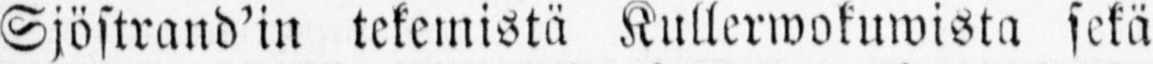Sjöstrand'in tekemistä Kullerwokuwista sekä
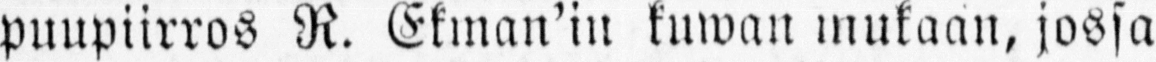puupiirros R. Ekman'in kuwan mukaan, jossa
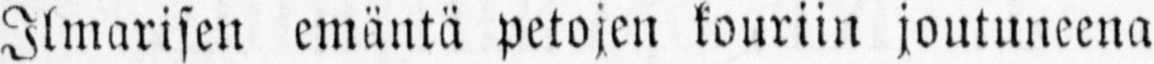Ilmarisen emäntä petojen kouriin joutuneena
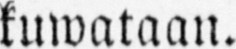kuwataan.
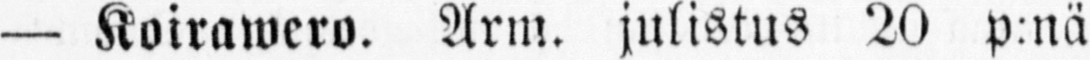— Koirawero. Arm. julistus 20 p:nä
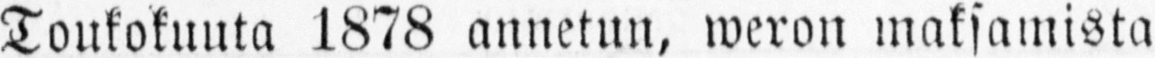Toukokuuta 1878 annetun, weron maksamista
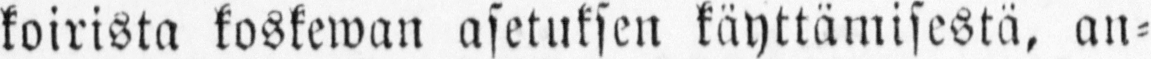koirista koskewan asetuksen käyttämisestä, an-
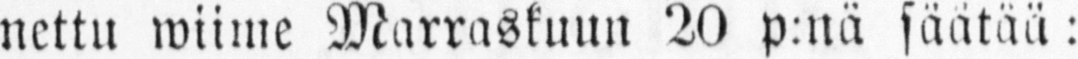nettu wiime Marraskuun 20 p:nä säätää:
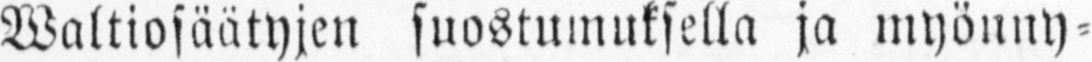Waltiosäätyjen suostumuksella ja myönny-
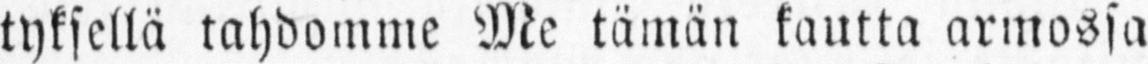tyksellä tahdomme Me tämän kantta armossa
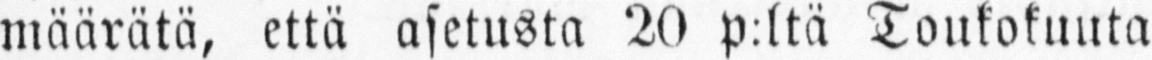määrätä, että asetusta 20 p:ltä Toukokuuta
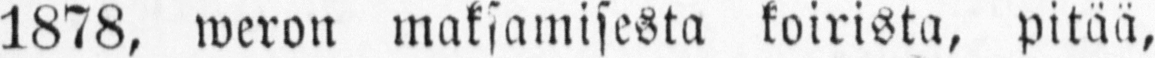1878, weron maksamisesta koirista, pitää,
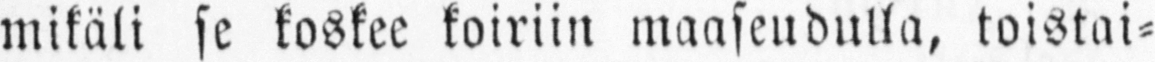mikäli se koskee koiriin maaseudulla, toistai-
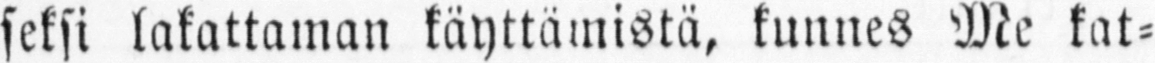seksi lakattaman käyttämistä, kunnes Me kat-
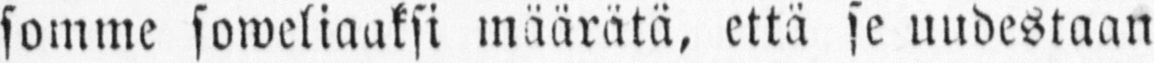somme soweliaaksi määrätä, että se uudestaan
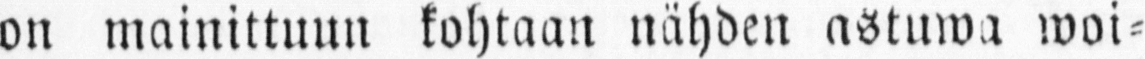on mainittuun kohtaan nähden astuwa woi-
